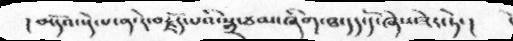།མདོའ་སྡེ་པ་ན་རེ་བརྗོད་པའི་སྒྲ་ཙམ་ཞིག་ཐ་དད་དོ་ཞེས་ཟེར་ཏེ་།
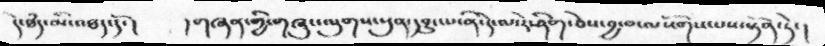དེ་ཐཾད་མི་འཐད་དོ་།   ། གཞན་གྱི་གཞུང་ལུགས་སུན་དབྱུང་པ་ནི་དེ་རེ་ཤིག་ཅེས་བྱ་བ་ལསོགས་པས་སྟོན་ཏེ་།
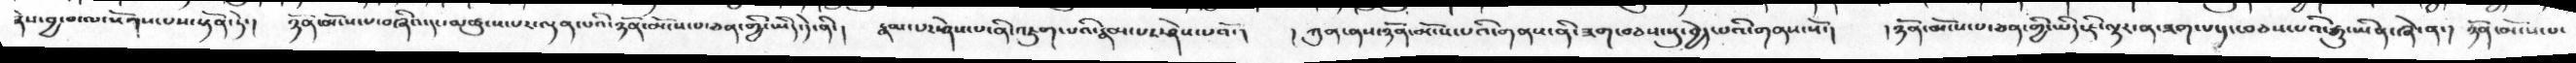ཞེས་བྱ་བ་ལ་སོགས་པས་སྟོན་ཏེ་།  ཉོན་མོངས་པ་བཞིའ་དང་མཚུངས་པར་ལྡན་པའི་ཉོན་མོངས་པ་ཅན་གྱི་ཡིད་དེ་ནི་།  རྣམ་པར་ཤེས་པ་ནི་འཇུག་པའི་རྣམ་པར་ཤེས་པའོ་།  །ཀུན་ནས་ཉོན་མོངས་པའི་གནས་ནི་ཟག་བཅས་སུ་བྱེད་པའི་གནས་སོ་།  །ཉོན་མོངས་པ་ཅན་གྱི་ཡིད་ཇི་ལྟར་ན་ཟག་པ་དང་བཅས་པའི་རྒྱུ་ཡིན་ཞེ་ན་།  ཉོན་མོངས་པ་
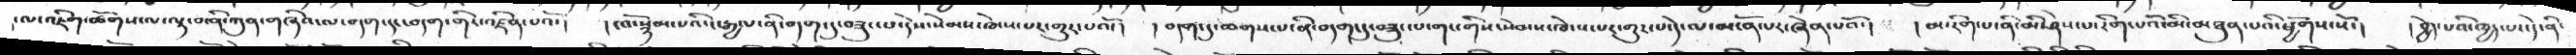་ལ་འཇིག་ཚོགས་ལ་ལྟ་བ་ནི་ཀུན་གཞིའ་ལ་བདག་དང་བདག་གིར་འཛིན་པའོ་།  །ངའོ་སྙམ་པའི་ང་རྒྱལ་ནི་བདག་དུ་བཟུང་པ་དེས་སེམས་ཁེངས་པར་གྱུར་པའོ་།  །བདག་དུ་ཆགས་པ་ནི་བདག་དུ་བཟུང་པ་གང་གིས་སེམས་ཁེངས་པར་གྱུར་པ་དེ་ལ་མངོན་པར་ཞེན་པའོ་།  །མ་རིག་པ་ནི་མི་ཤེས་པ་རིག་པའི་མི་མཐུན་པའི་ཕྱོགས་སོ་།  །བྱེད་པའི་ཁྱད་པར་དེ་ནི་
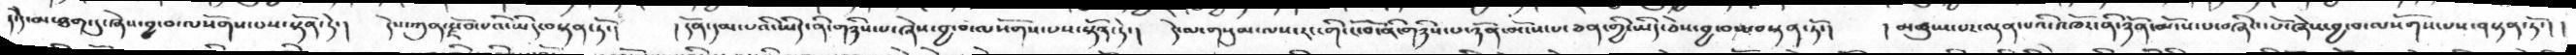།་དེ་མ་ཐག་དུ་ཞེས་བྱ་བ་ལསོགས་པས་སྟོན་ཏེ་།  དེས་ཀུན་རྫོབ་པའི་ཡིད་བསྟན་ཏོ་།  །དོན་དམ་པའི་ཡིད་ནི་གཉིས་པ་ཞེས་བྱ་བ་ལསོགས་པས་སྟོན་ཏེ་།  དེ་ལ་གསུམ་ལས་རང་གི་ངོ་བོ་ནི་གཉིས་པ་ཉོན་མོངས་པ་ཅན་གྱི་ཡིད་ཅེས་བྱ་བས་བསྟན་ཏོ་།   །མཚུངས་པར་ལྡན་པའི་འཁོར་ནི་ཉོན་མོངས་པ་བཞིའ་པོ་ཞེས་བྱ་བ་ལསོགས་པས་བསྟན་ཏོ་། །
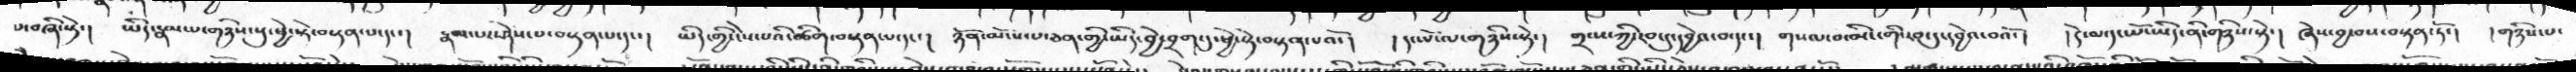པ་བཞི་ཏེ་།  ཡིད་རྣམ་པ་གཉིས་སུ་ཕྱེ་སྟེ་བསྟན་པ་དང་།  རྣམ་པར་ཤེས་པ་བསྟན་པ་དང་།  ཡིད་གྱི་ངེས་པའི་ཚིག་བསྟན་པ་དང་།  ཉོན་མོངས་པ་ཅན་གྱི་ཡིད་བྱེ་བྲག་དུ་ཕྱེ་སྟེ་བསྟན་པའོ་།  །དང་པོ་ལ་གཉིས་སྟེ་།  གྲངསཀྱི་རབ་དུ་དབྱེའ་བ་དང་།  གསལ་བ་མིང་གིས་རབ་དུ་དབྱེའ་བའོ་།  །དེ་ལ་དང་པོ་ཡིད་ནི་གཉིས་སྟེ་། ཞེས་བྱ་བས་བསྟན་ཏོ་།  །གཉིས་པ་
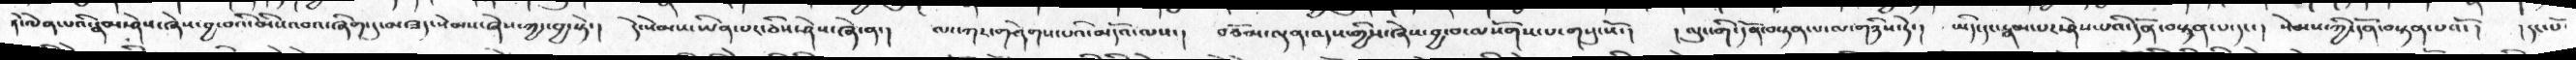ཏེ་ལེན་པའི་རྣམ་ཤེས་ཞེས་བྱ་བའི་མིས་འབའ་ཞིག་དུ་མ་ཟད་སེམས་ཞེས་ཀྱང་བྱ་སྟེ་།  དེ་སེམས་ཡིན་པར་ཅིས་ཤེས་ཞེ་ན་།  ལང་ཀར་གཤེགས་པའི་མདོའ་ལས་།  བཅོམ་ལྡན་འདས་གྱིས་ཞེས་བྱ་བ་ལསོགས་པ་གསུངསོ་།  །ལུང་གི་དོན་བསྟན་པ་ལ་གཉིས་ཏེ་།  ཡིད་དང་རྣམ་པར་ཤེས་པའི་དོན་བསྟན་པ་དང་།  སེམས་ཀྱི་དོན་བསྟན་པའོ་།  །དང་པོ་
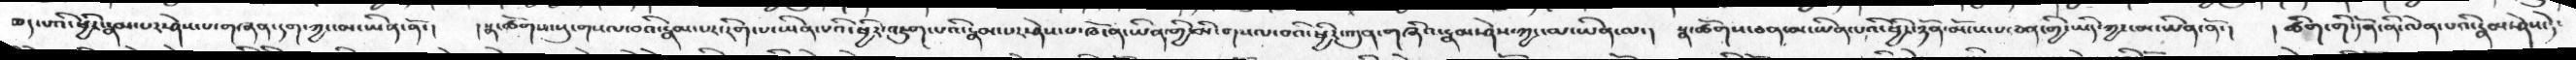ཆད་པའི་ཕྱིར་རྣམ་པར་ཤེས་པ་གཞན་དག་ཀྱང་མ་ཡིན་ནོ་།  །སྣ་ཚོགས་པར་གསལ་བའི་རྣམ་པར་རིག་པ་ཡིན་པའི་ཕྱིར་འཇུག་པའི་རྣམ་པར་ཤེས་པ་ཁོ་ན་ཡིན་གྱི་མི་གསལ་བའི་ཕྱིར་ཀུན་གཞིའ་རྣམ་ཤེས་ཀྱང་མ་ཡིན་ལ་།  སྣ་ཚོགས་ཅན་མ་ཡིན་པའི་ཕྱིར་ཉོན་མོངས་པ་ཅན་གྱི་ཡིད་ཀྱང་མ་ཡིན་ནོ་།  །ཚིག་གི་དོན་ནི་ལེན་པའི་རྣམ་ཤེས་དེ་
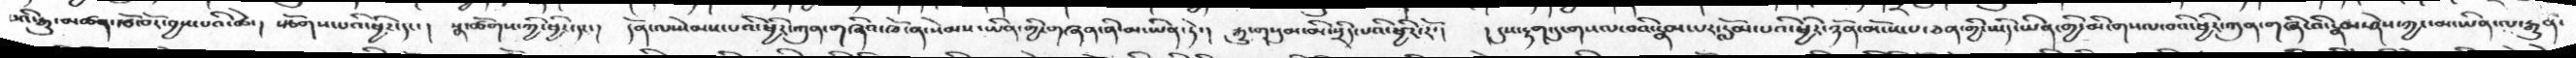བའི་རྒྱུ་མཚན་རྩོ་བོར་བྱས་པའི་ཚེ་།  སྩོགས་པའི་ཕྱིར་དང་།  སྣ་ཚོགས་ཀྱི་ཕྱིར་དང་།  དོན་ལ་སེམས་པའི་ཕྱིར་ཀུན་གཞིའ་ཁོ་ན་སེམས་ཡིན་གྱི་གཞན་ནི་མ་ཡིན་ཏེ་།  རྒྱུ་གསུམ་མི་སྲིད་པའི་ཕྱིར་རོ་།  །དུས་རྟག་དུ་གསལ་བའི་རྣམ་པར་རློམ་པའི་ཕྱིར་ཉོན་མོངས་པ་ཅན་གྱི་ཡིད་ཡིན་གྱི་མི་གསལ་བའི་ཕྱིར་ཀུན་གཞི་འི་རྣམ་ཤེས་ཀྱང་མ་ཡིན་ལ་རྒྱུན་
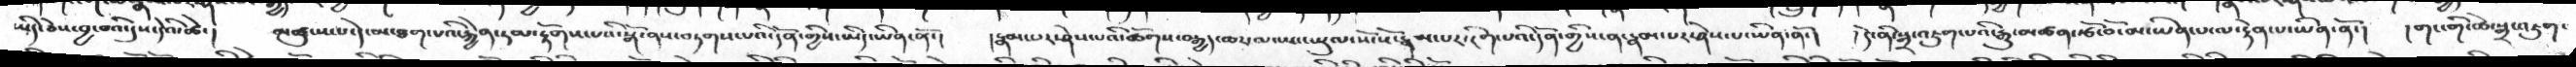ཡིད་ཅེས་བྱ་བའི་དུས་དེའི་ཚེ་།   མཚུངས་པ་དེ་མ་ཐག་པའི་རྐྱེན་ཏམ་རྟོགས་པའི་སྒོ་ནས་བཏགས་པའི་དོན་གྱིས་ཡིད་ཡིན་ནོ་།   །རྣམ་པར་ཤེས་པའི་ཚོགས་བརྒྱད་ཆར་ལ་ཡང་ཡུལ་སོ་སོ་རྣམ་པར་རིག་པའི་དོན་གྱིས་ན་རྣམ་པར་ཤེས་པ་ཡིན་ནོ་།  །དེ་ནི་སྒྲ་འཇུག་པའི་རྒྱུ་མཚན་རྩོ་བོ་མ་ཡིན་པ་ལ་རྟེན་པ་ཡིན་ནོ་།   །གང་གི་ཚེ་སྒྲ་འཇུག་
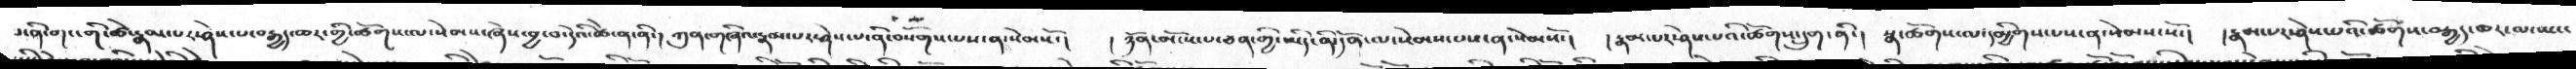པ་ནི་གང་གི་ཚེ་རྣམ་པར་ཤེས་པ་བརྒྱད་ཆར་གྱི་ཚོགས་ལ་སེམས་ཞེས་བྱ་བ་དེའི་ཚེ་ན་ནི་།   ཀུན་གཞིའ་རྣམ་པར་ཤེས་པ་ནི་བསོགས་པས་ན་སེམསོ་།   །ཉོན་མོངས་པ་ཅན་གྱི་ཡིད་ནི་དོན་ལ་སེམས་པས་ན་སེམསོ་།   །རྣམ་པར་ཤེས་པའི་ཚོགས་དྲུག་ནི་།   སྣ་ཚོགས་ལ་དམྱིགས་པས་ན་སེམས་སོ་།  །རྣམ་པར་ཤེས་པའི་ཚོགས་བརྒྱད་ཆར་ལ་ཡང་
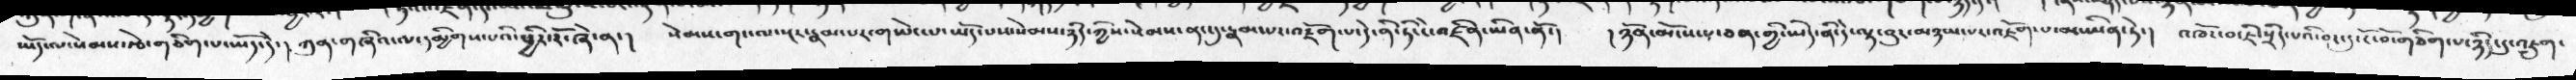ཡོད་ལ་སེམས་རྩེ་གཅིག་པ་ཡོད་དེ་། ཀུན་གཞིའ་ལ་དམྱིགས་པའི་ཕྱིར་རོ་ཞེ་ན་། སེམས་གང་ལ་སྔར་སྣམ་པར་གཡེང་པ་ཡོད་པས་སེམས་ཉིད་ཀྱིས་སེམས་ནང་དུ་རྣམ་པར་འཇོག་པ་དེ་ནི་ཏིང་ངེ་འཛིན་ཡིན་ནོ་།  །ཉོན་མོངས་པ་ཅན་གྱི་ཡིད་ནི་དེ་ལྟ་བུར་མཉམ་པར་འཇོག་པ་མ་ཡིན་ཏེ་།  འཁོར་བ་ཇི་སྲིད་པའི་བར་དུ་ངོ་བོ་གཅིག་པ་ཉིད་དུ་འཇུག་
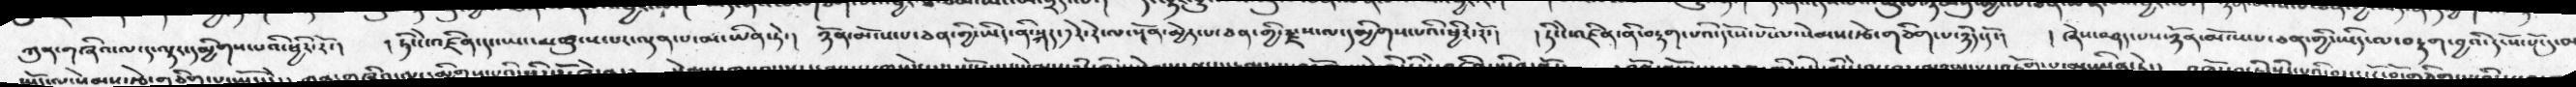ཀུན་གཞིའ་ལ་ད་ལྟར་དམྱིགས་པའི་ཕྱིར་རོ་།  །ཏིང་ངེ་འཛིན་དང་ཡང་མཚུངས་པར་ལྡན་པ་མ་ཡིན་ཏེ་།  ཉོན་མོངས་པ་ཅན་གྱི་ཡིད་ནི་སྐད་༡རེ་རེ་ལ་སྔོན་མྱེད་པ་ཅན་གྱི་རྫས་ལ་དམྱིགས་པའི་ཕྱིར་རོ་།  །ཏི་ངེ་འཛིན་ནི་བརྟག་པའི་དངོས་པོ་ལ་སེམས་རྩེ་གཅིག་པ་ཉིད་དོ་།   ཞེས་བཤད་པས་ཉོན་མོངས་པ་ཅན་གྱི་ཡིད་ལ་བརྟག་བྱའི་དངོས་པོ་་དུ་མ
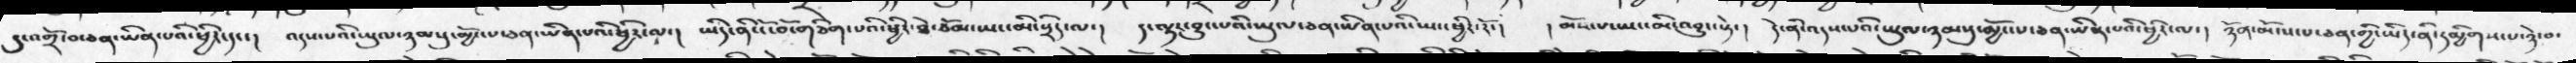དུ་འགྲོ་བ་ཅན་ཡིན་པའི་ཕྱིར་དང་།   འདས་པའི་ཡུལ་ཉམསུ་མྱོང་པ་ཅན་ཡིན་པའི་ཕྱིར་ལ་།  ཡིད་ནི་ངོ་བོ་གཅིག་པའི་ཕྱིར་ཐེ་ཚོམ་ཡང་མི་སྲིད་ལ་།  ད་ལྟར་བྱུང་པའི་ཡུལ་ཅན་ཡིན་པའི་ཡང་ཕྱིར་རོ་།   ། མོས་པ་ཡང་མི་འབྱུང་སྟེ་།  དེ་ནི་འདས་པའི་ཡུལ་ཉམསུ་མྱོང་པ་ཅན་ཡིན་པའི་ཕྱིར་ལ་།  ཉོན་མོངས་པ་ཅན་གྱི་ཡིད་ནི་དམྱིགས་པ་ཉེ་བ་
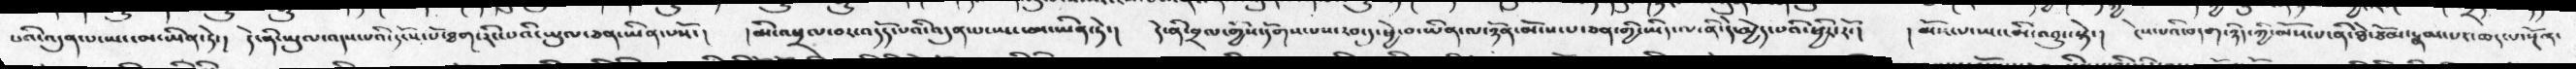པའི་འདུན་པ་ཡང་མ་ཡིན་ཏེ་།  དེ་ནི་ཡུལ་འདས་པའི་དངོས་པོ་ཐག་རིང་པའི་ཡུལ་ཅན་ཡིན་པསོ་།   ། མི་འཕྲལ་བར་འདོད་པའི་འདུན་པ་ཡང་མ་ཡིན་ཏེ་།  དེ་ནི་བྲལ་གྱིས་དོགས་པས་རབ་དུ་ཕྱེ་བ་ཡིན་ལ་ཉོན་མོངས་པ་ཅན་གྱི་ཡིད་ལ་ནི་དེ་མྱེད་པའི་ཕྱིར་རོ་།   ། མོས་པ་ཡང་མི་འབྱུང་སྟེ་།  ངེས་པའི་བདག་ཉིད་ཀྱི་མོས་པ་ནི་ཐེ་ཚོམ་རྣམ་པར་བཅད་པ་སྔོན་
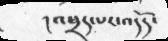།  འཕྲད་པར་འདོད་
